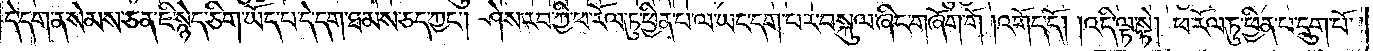དེ་དག་ན་སེམས་ཅན་ཇི་སྙེད་ཅིག་ཡོད་པ་དེ་དག་ཐམས་ཅད་ཀྱང༌། ཤེས་རབ་ཀྱི་ཕ་རོལ་ཏུ་ཕྱིན་པ་ལ་ཡང་དག་པར་བསྐུལ་ཞིང་གཞོག་གོ །འགོད་དོ། །འདི་ལྟ་སྟེ། ཕ་རོལ་ཏུ་ཕྱིན་པ་དྲུག་པོ་
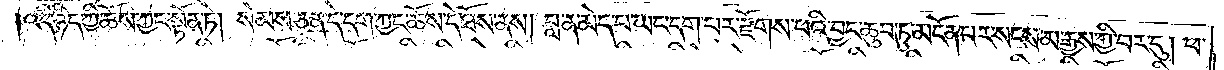འདི་ཉིད་ཀྱི་ཆོས་ཀྱང་སྟོན་ཏེ། སེམས་ཅན་དེ་དག་ཀྱང་ཆོས་དེ་ཐོས་ནས། བླ་ན་མེད་པ་ཡང་དག་པར་རྫོགས་པའི་བྱང་ཆུབ་ཏུ་མངོན་པར་སངས་མ་རྒྱས་ཀྱི་བར་དུ། ཕ་
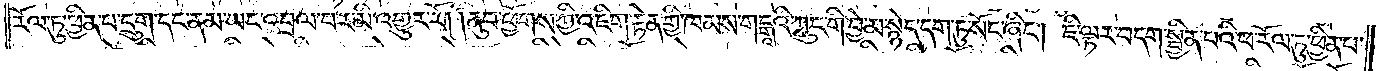རོལ་ཏུ་ཕྱིན་པ་དྲུག་དང་ནམ་ཡང་འབྲལ་བར་མི་འགྱུར་རོ། །ནུབ་ཕྱོགས་ཀྱི་འཇིག་རྟེན་གྱི་ཁམས་གངྒཱའི་ཀླུང་གི་བྱེ་མ་སྙེད་དག་ཏུ་སོང་ཞིང༌། ཇི་ལྟར་བདག་སྦྱིན་པའི་ཕ་རོལ་ཏུ་ཕྱིན་པ་
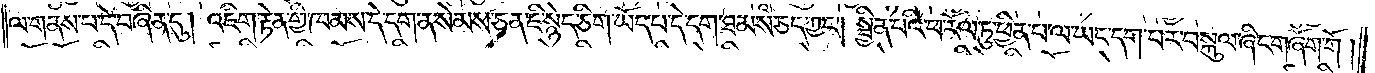ལ་གནས་པ་དེ་བཞིན་དུ། འཇིག་རྟེན་གྱི་ཁམས་དེ་དག་ན་སེམས་ཅན་ཇི་སྙེད་ཅིག་ཡོད་པ་དེ་དག་ཐམས་ཅད་ཀྱང༌། སྦྱིན་པའི་ཕ་རོལ་ཏུ་ཕྱིན་པ་ལ་ཡང་དག་པར་བསྐུལ་ཞིང་གཞོག་གོ །
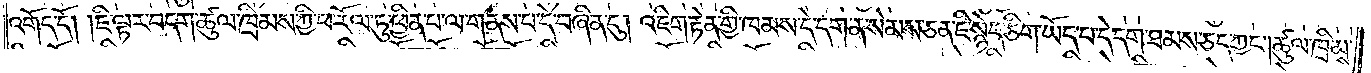འགོད་དོ། །ཇི་ལྟར་བདག་ཚུལ་ཁྲིམས་ཀྱི་ཕ་རོལ་ཏུ་ཕྱིན་པ་ལ་གནས་པ་དེ་བཞིན་དུ། འཇིག་རྟེན་གྱི་ཁམས་དེ་དག་ན་སེམས་ཅན་ཇི་སྙེད་ཅིག་ཡོད་པ་དེ་དག་ཐམས་ཅད་ཀྱང༌། ཚུལ་ཁྲིམས་
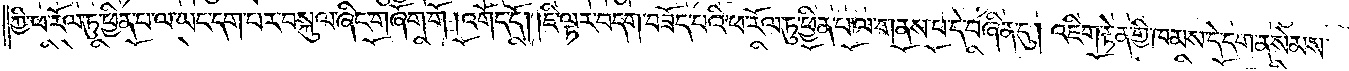ཀྱི་ཕ་རོལ་ཏུ་ཕྱིན་པ་ལ་ཡང་དག་པར་བསྐུལ་ཞིང་གཞོག་གོ །འགོད་དོ། །ཇི་ལྟར་བདག་བཟོད་པའི་ཕ་རོལ་ཏུ་ཕྱིན་པ་ལ་གནས་པ་དེ་བཞིན་དུ། འཇིག་རྟེན་གྱི་ཁམས་དེ་དག་ན་སེམས་
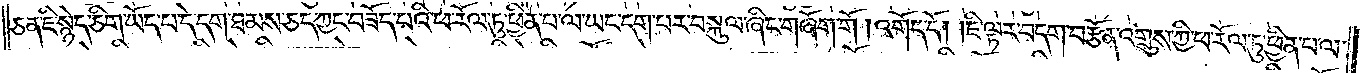ཅན་ཇི་སྙེད་ཅིག་ཡོད་པ་དེ་དག་ཐམས་ཅད་ཀྱང་བཟོད་པའི་ཕ་རོལ་ཏུ་ཕྱིན་པ་ལ་ཡང་དག་པར་བསྐུལ་ཞིང་གཞོག་གོ །འགོད་དོ། །ཇི་ལྟར་བདག་བརྩོན་འགྲུས་ཀྱི་ཕ་རོལ་ཏུ་ཕྱིན་པ་ལ་
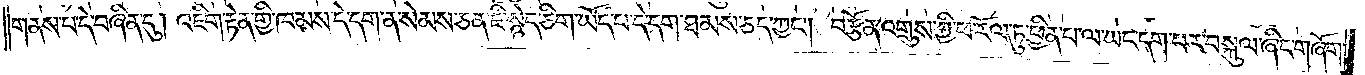གནས་པ་དེ་བཞིན་དུ། འཇིག་རྟེན་གྱི་ཁམས་དེ་དག་ན་སེམས་ཅན་ཇི་སྙེད་ཅིག་ཡོད་པ་དེ་དག་ཐམས་ཅད་ཀྱང༌། བརྩོན་འགྲུས་ཀྱི་ཕ་རོལ་ཏུ་ཕྱིན་པ་ལ་ཡང་དག་པར་བསྐུལ་ཞིང་གཞོག་
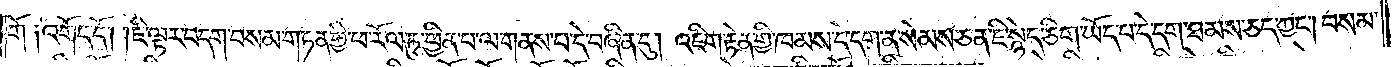གོ །འགོད་དོ། །ཇི་ལྟར་བདག་བསམ་གཏན་གྱི་ཕ་རོལ་ཏུ་ཕྱིན་པ་ལ་གནས་པ་དེ་བཞིན་དུ། འཇིག་རྟེན་གྱི་ཁམས་དེ་དག་ན་སེམས་ཅན་ཇི་སྙེད་ཅིག་ཡོད་པ་དེ་དག་ཐམས་ཅད་ཀྱང༌། བསམ་
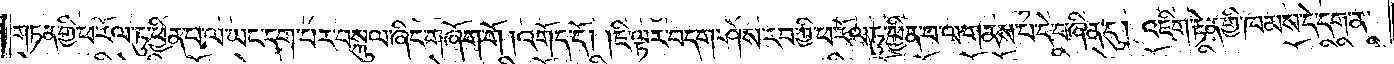གཏན་གྱི་ཕ་རོལ་ཏུ་ཕྱིན་པ་ལ་ཡང་དག་པར་བསྐུལ་ཞིང་གཞོག་གོ །འགོད་དོ། །ཇི་ལྟར་བདག་ཤེས་རབ་ཀྱི་ཕ་རོལ་ཏུ་ཕྱིན་པ་ལ་གནས་པ་དེ་བཞིན་དུ། འཇིག་རྟེན་གྱི་ཁམས་དེ་དག་ན་
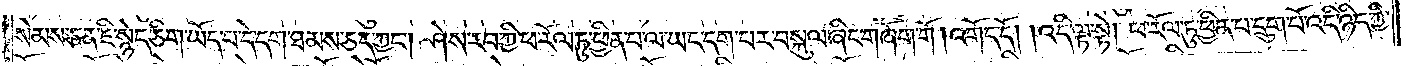སེམས་ཅན་ཇི་སྙེད་ཅིག་ཡོད་པ་དེ་དག་ཐམས་ཅད་ཀྱང༌། ཤེས་རབ་ཀྱི་ཕ་རོལ་ཏུ་ཕྱིན་པ་ལ་ཡང་དག་པར་བསྐུལ་ཞིང་གཞོག་གོ །འགོད་དོ། །འདི་ལྟ་སྟེ། ཕ་རོལ་ཏུ་ཕྱིན་པ་དྲུག་པོ་འདི་ཉིད་ཀྱི་
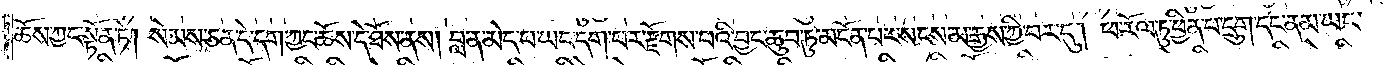ཆོས་ཀྱང་སྟོན་ཏེ། སེམས་ཅན་དེ་དག་ཀྱང་ཆོས་དེ་ཐོས་ནས། བླ་ན་མེད་པ་ཡང་དག་པར་རྫོགས་པའི་བྱང་ཆུབ་ཏུ་མངོན་པར་སངས་མ་རྒྱས་ཀྱི་བར་དུ། ཕ་རོལ་ཏུ་ཕྱིན་པ་དྲུག་དང་ནམ་ཡང་
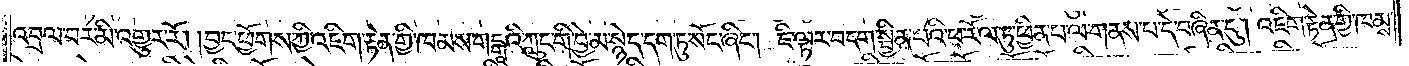འབྲལ་བར་མི་འགྱུར་རོ། །བྱང་ཕྱོགས་ཀྱི་འཇིག་རྟེན་གྱི་ཁམས་གངྒཱའི་ཀླུང་གི་བྱེ་མ་སྙེད་དག་ཏུ་སོང་ཞིང༌། ཇི་ལྟར་བདག་སྦྱིན་པའི་ཕ་རོལ་ཏུ་ཕྱིན་པ་ལ་གནས་པ་དེ་བཞིན་དུ། འཇིག་རྟེན་གྱི་ཁམས་
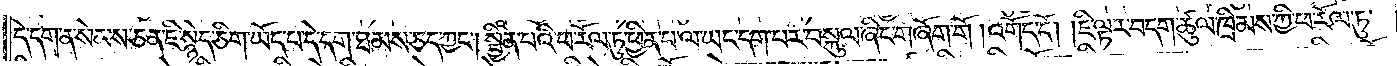དེ་དག་ན། སེམས་ཅན་ཇི་སྙེད་ཅིག་ཡོད་པ་དེ་དག་ཐམས་ཅད་ཀྱང༌། སྦྱིན་པའི་ཕ་རོལ་ཏུ་ཕྱིན་པ་ལ་ཡང་དག་པར་བསྐུལ་ཞིང་གཞོག་གོ །འགོད་དོ། །ཇི་ལྟར་བདག་ཚུལ་ཁྲིམས་ཀྱི་ཕ་རོལ་ཏུ་
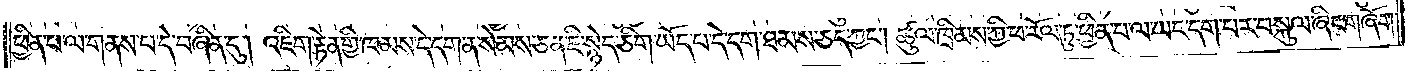ཕྱིན་པ་ལ་གནས་པ་དེ་བཞིན་དུ། འཇིག་རྟེན་གྱི་ཁམས་དེ་དག་ན་སེམས་ཅན་ཇི་སྙེད་ཅིག་ཡོད་པ་དེ་དག་ཐམས་ཅད་ཀྱང༌། ཚུལ་ཁྲིམས་ཀྱི་ཕ་རོལ་ཏུ་ཕྱིན་པ་ལ་ཡང་དག་པར་བསྐུལ་ཞིང་གཞོག་
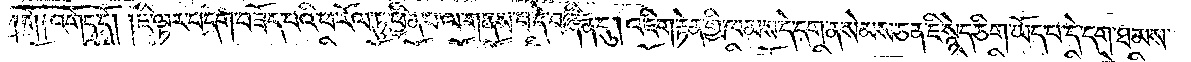གོ །འགོད་དོ། །ཇི་ལྟར་བདག་བཟོད་པའི་ཕ་རོལ་ཏུ་ཕྱིན་པ་ལ་གནས་པ་དེ་བཞིན་དུ། འཇིག་རྟེན་གྱི་ཁམས་དེ་དག་ན་སེམས་ཅན་ཇི་སྙེད་ཅིག་ཡོད་པ་དེ་དག་ཐམས་
